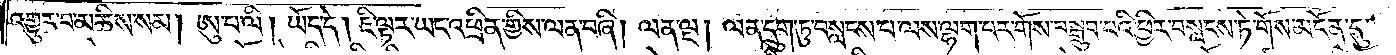འགྱུར་བ་མཆིས་སམ། ཨུ་པ་ལི། ཡོད་དེ། ཇི་ལྟར་ཡང་འཕྲིན་གྱིས་ལན་བཞི། ལན་ལྔ། ལན་དྲུག་ཏུ་བསླངས་པ་ལས་ལྷག་པར་གོས་བསྒྲུབ་པའི་ཕྱིར་བསླངས་ཏེ་གོས་མངོན་དུ་
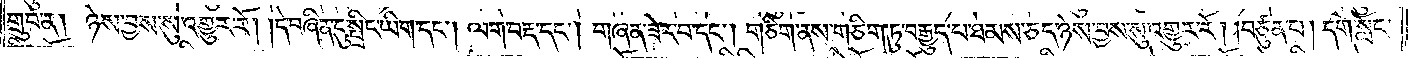གྲུབ་ན། ཉེས་བྱས་སུ་འགྱུར་རོ། །དེ་བཞིན་དུ་སྤྲིང་ཡིག་དང༌། ལག་བརྡ་དང༌། གཞན་ཟེར་བ་དང༌། གཅིག་ནས་གཅིག་ཏུ་བརྒྱུད་པ་ཐམས་ཅད་ཉེས་བྱས་སུ་འགྱུར་རོ། །བཙུན་པ། དགེ་སློང་
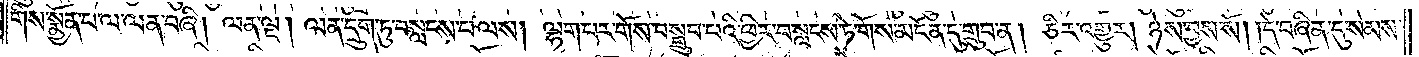གིས་སྨྱོན་པ་ལ་ལན་བཞི། ལན་ལྔ། ལན་དྲུག་ཏུ་བསླངས་པ་ལས། ལྷག་པར་གོས་བསྒྲུབ་པའི་ཕྱིར་བསླངས་ཏེ་གོས་མངོན་དུ་གྲུབ་ན། ཅིར་འགྱུར། ཉེས་བྱས་སོ། །དེ་བཞིན་དུ་སེམས་
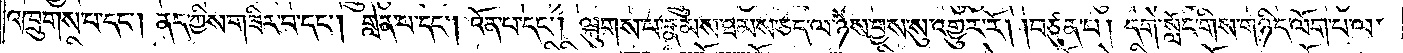འཁྲུགས་པ་དང༌། ནད་ཀྱིས་གཟིར་བ་དང༌། གླེན་པ་དང༌། འོན་པ་དང༌། ལྐུགས་པ་རྣམས་ཐམས་ཅད་ལ་ཉེས་བྱས་སུ་འགྱུར་རོ། །བཙུན་པ། དགེ་སློང་གིས་གཉིད་ལོག་པ་ལ་
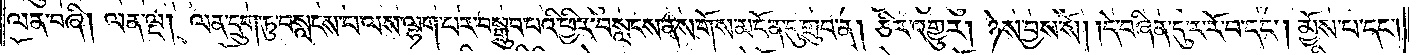ལན་བཞི། ལན་ལྔ། ལན་དྲུག་ཏུ་བསླངས་པ་ལས་ལྷག་པར་བསྒྲུབ་པའི་ཕྱིར་བསླངས་ནས་གོས་མངོན་དུ་གྲུབ་ན། ཅིར་འགྱུར། ཉེས་བྱས་སོ། །དེ་བཞིན་དུ་ར་རོ་བ་དང༌། མྱོས་པ་དང༌།
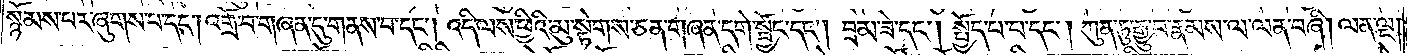སྙོམས་པར་ཞུགས་པ་དང༌། འགྲོ་བ་གཞན་དུ་གནས་པ་དང༌། འདི་ལས་ཕྱིའི་མུ་སྟེགས་ཅན་གཞན་དགེ་སྦྱོང་དང༌། བྲམ་ཟེ་དང༌། སྤྱོད་པ་པ་དང༌། ཀུན་ཏུ་རྒྱུ་བ་རྣམས་ལ་ལན་བཞི། ལན་ལྔ།
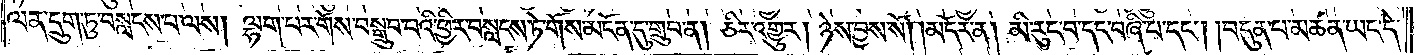ལན་དྲུག་ཏུ་བསླངས་པ་ལས། ལྷག་པར་གོས་བསྒྲུབ་པའི་ཕྱིར་བསླངས་ཏེ་གོས་མངོན་དུ་གྲུབ་ན། ཅིར་འགྱུར། ཉེས་བྱས་སོ།    །མདོར་ན། མི་རུང་བ་དང་བཞི་པ་དང༌། །བདུན་པ་མཚན་ཡང་དེ་
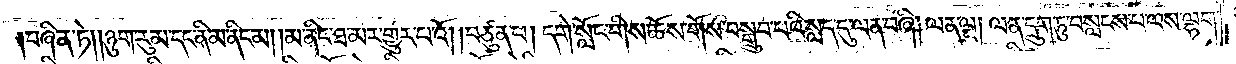བཞིན་ཏེ། ཉུག་རུམ་དང་ནི་མ་ནིང་མ། །མ་ནིང་ཐ་མར་གྱུར་པའོ། །བཙུན་པ། དགེ་སློང་གིས་ཆོས་གོས་བསྒྲུབ་པའི་སླད་དུ་ལན་བཞི། ལན་ལྔ། ལན་དྲུག་ཏུ་བསླངས་པ་ལས་ལྷག་
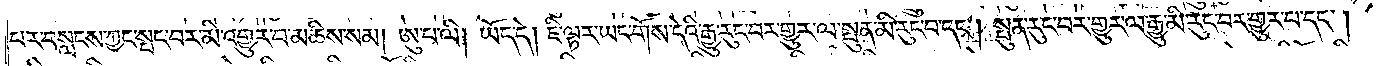པར་བསླངས་ཀྱང་སྤང་བར་མི་འགྱུར་པ་མཆིས་སམ། ཨུ་པ་ལི། ཡོད་དེ། ཇི་ལྟར་ཡང་གོས་དེའི་རྒྱུ་རུང་བར་གྱུར་ལ་སྤུན་མི་རུང་བ་དང༌། སྤུན་རུང་བར་གྱུར་ལ་རྒྱུ་མི་རུང་བར་གྱུར་པ་དང༌།
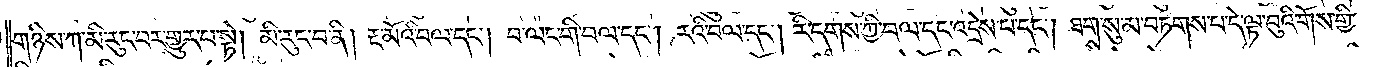གཉིས་ཀ་མི་རུང་བར་གྱུར་པ་སྟེ། མི་རུང་བ་ནི། རྔ་མོའི་བལ་དང༌། བ་ལང་གི་བལ་དང༌། རའི་བལ་དང༌། རི་དྭགས་ཀྱི་བལ་དང་འདྲེས་པ་དང༌། ཐགས་སུ་མ་བཏགས་པ་དེ་ལྟ་བུའི་གོས་གྱི་
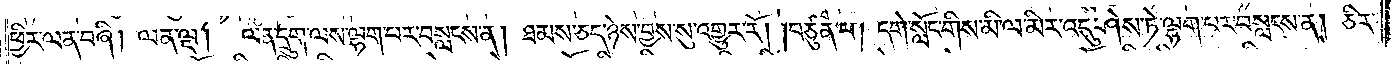ཕྱིར་ལན་བཞི། ལན་ལྔ།    ལན་དྲུག་ལས་ལྷག་པར་བསླངས་ན། ཐམས་ཅད་ཉེས་བྱས་སུ་འགྱུར་རོ། །བཙུན་པ། དགེ་སློང་གིས་མི་ལ་མིར་འདུ་ཤེས་ཏེ་ལྷག་པར་བསླངས་ན། ཅིར་
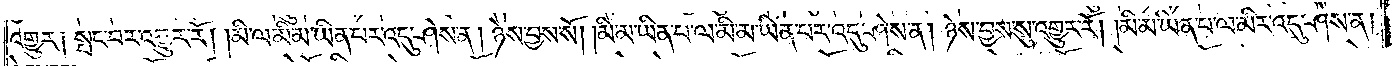འགྱུར༑ སྤང་བར་འགྱུར་རོ། །མི་ལ་མི་མ་ཡིན་པར་འདུ་ཤེས་ན། ཉེས་བྱས་སོ། །མི་མ་ཡིན་པ་ལ་མི་མ་ཡིན་པར་འདུ་ཤེས་ན། ཉེས་བྱས་སུ་འགྱུར་རོ། །མི་མ་ཡིན་པ་ལ་མིར་འདུ་ཤེས་ན།
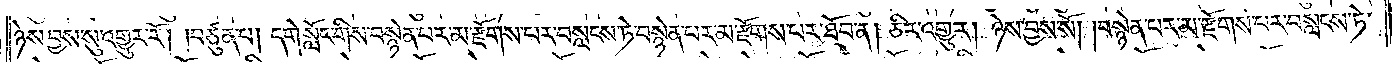ཉེས་བྱས་སུ་འགྱུར་རོ། །བཙུན་པ། དགེ་སློང་གིས་བསྙེན་པར་མ་རྫོགས་པར་བསླངས་ཏེ་བསྙེན་པར་མ་རྫོགས་པར་ཐོབ་ན། ཅིར་འགྱུར། ཉེས་བྱས་སོ། །བསྙེན་པར་མ་རྫོགས་པར་བསླངས་ཏེ་
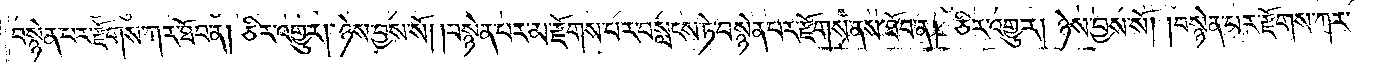བསྙེན་པར་རྫོགས་ཀར་ཐོབ་ན། ཅིར་འགྱུར། ཉེས་བྱས་སོ། །བསྙེན་པར་མ་རྫོགས་པར་བསླངས་ཏེ་བསྙེན་པར་རྫོགས་ནས་ཐོབ་ན། ཅིར་འགྱུར། ཉེས་བྱས་སོ། །བསྙེན་པར་རྫོགས་ཀར་
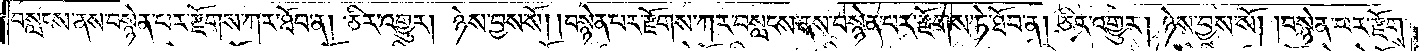བསླངས་ནས་བསྙེན་པར་རྫོགས་ཀར་ཐོབ་ན། ཅིར་འགྱུར། ཉེས་བྱས་སོ། །བསྙེན་པར་རྫོགས་ཀར་བསླངས་ནས་བསྙེན་པར་རྫོགས་ཏེ་ཐོབ་ན། ཅིར་འགྱུར། ཉེས་བྱས་སོ། །བསྙེན་པར་རྫོགས་
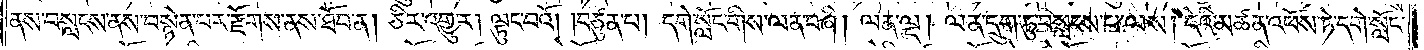ནས་བསླངས་ནས་བསྙེན་པར་རྫོགས་ནས་ཐོབ་ན། ཅིར་འགྱུར། ལྟུང་བའོ། །བཙུན་པ། དགེ་སློང་གིས་ལན་བཞི། ལན་ལྔ། ལན་དྲུག་ཏུ་བསླངས་པ་ལས། དེའི་མཚན་འཕོས་ཏེ་དགེ་སློང་
